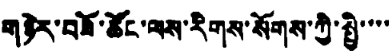གཉེར་བཟོ་ཚོང་ལས་རིགས་སོགས་ཀྱི་སྤྱི་་་་
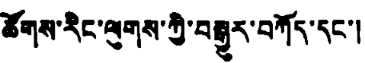ཚོགས་རིང་ལུགས་ཀྱི་བསྒྱུར་བཀོད་དང་།
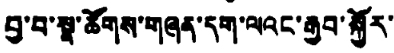བྱ་བ་སྣ་ཚོགས་གཞན་དག་ལའང་རྒྱབ་སྐྱོར་
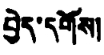བྱེད་དགོས།
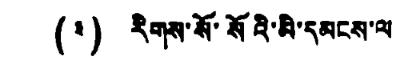(༣) རིགས་སོ་སོའི་མི་དམངས་ལ
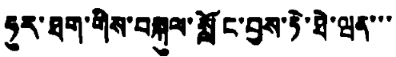ཧུར་ཐག་གིས་བསྐུལ་སློང་བྱས་ཏེ་ཐེ་ཝན་་་
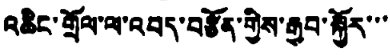འཆིང་གྲོལ་ལ་འབད་བཙོན་གྱིས་རྒྱབ་སྐྱོར་་་
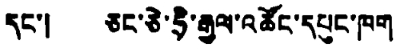དང་། ཅང་ཅེ་ཧྲི་རྒྱལ་འཚོང་དཔུང་ཁག
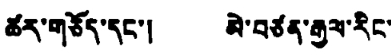ཚར་གཅོད་དང་། མེ་བཙན་རྒྱལ་རིང་
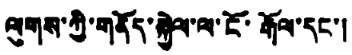ལུགས་ཀྱི་གནོད་སྐྱེལ་ལ་ངོ་རྒོལ་དང་།
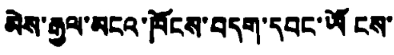མེས་རྒྱལ་མངའ་ཁོངས་བདག་དབང་ཡོངས་
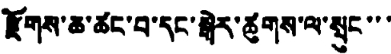རྫོགས་ཆ་ཚང་བ་དང་སྒེར་ཚུགས་ལ་སྲུང་་་
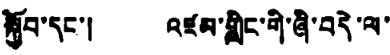སྐྱོབ་དང་། འཛམ་གླིང་གི་ཞི་བདེ་ལ་
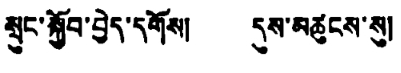སྲུང་སྐྱོབ་བྱེད་དགོས། དུས་མཚུངས་སུ།
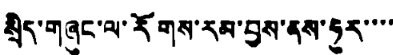སྲིད་གཞུང་ལ་རོགས་རམ་བྱས་ནས་ཧུར་་་་
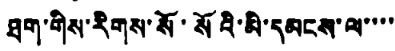ཐག་གིས་རིགས་སོ་སོའི་མི་དམངས་ལ་་་་
